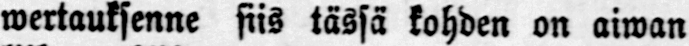wertauksenne siis tässä kohden on aiwan
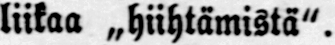liikaa „hiihtämistä".
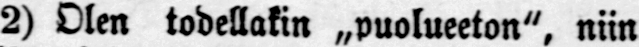2) Olen todellakin „puolueeton", niin
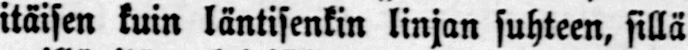itäisen kuin läntisenkin linjan suhteen, sillä
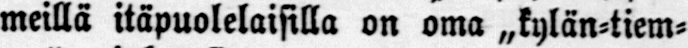meillä itäpuolelaisilla on oma „kylän-tiem-
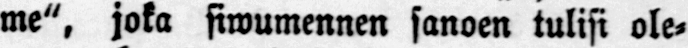me", joka siwumennen sanoen tulisi ole-
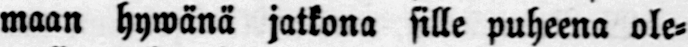maan hywänä jatkona sille puheena ole-
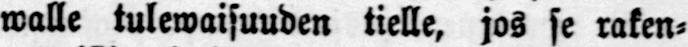walle tulewaisuuden tielle, jos se raken-
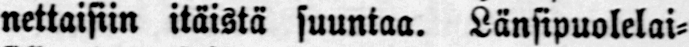nettaisiin itäistä suuntaa. Länsipuolelai-
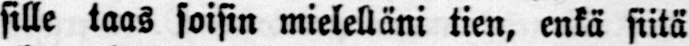sille taas soisin mielelläni tien, enkä siitä
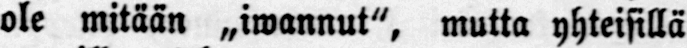ole mitään „iwannut", mutta yhteisillä
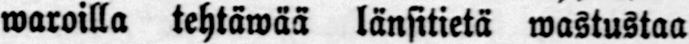waroilla tehtäwää länsitietä wastustaa
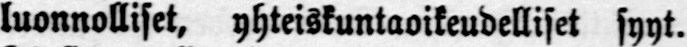luonnolliset, yhteiskuntaoikeudelliset syyt.
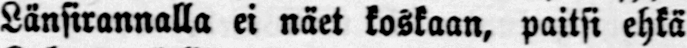Länsirannalla ei näet koskaan, paitsi ehkä
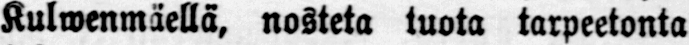Kulwenmäellä, nosteta tuota tarpeetonta
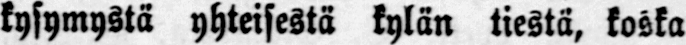kysymystä yhteisestä kylän tiestä, koska
